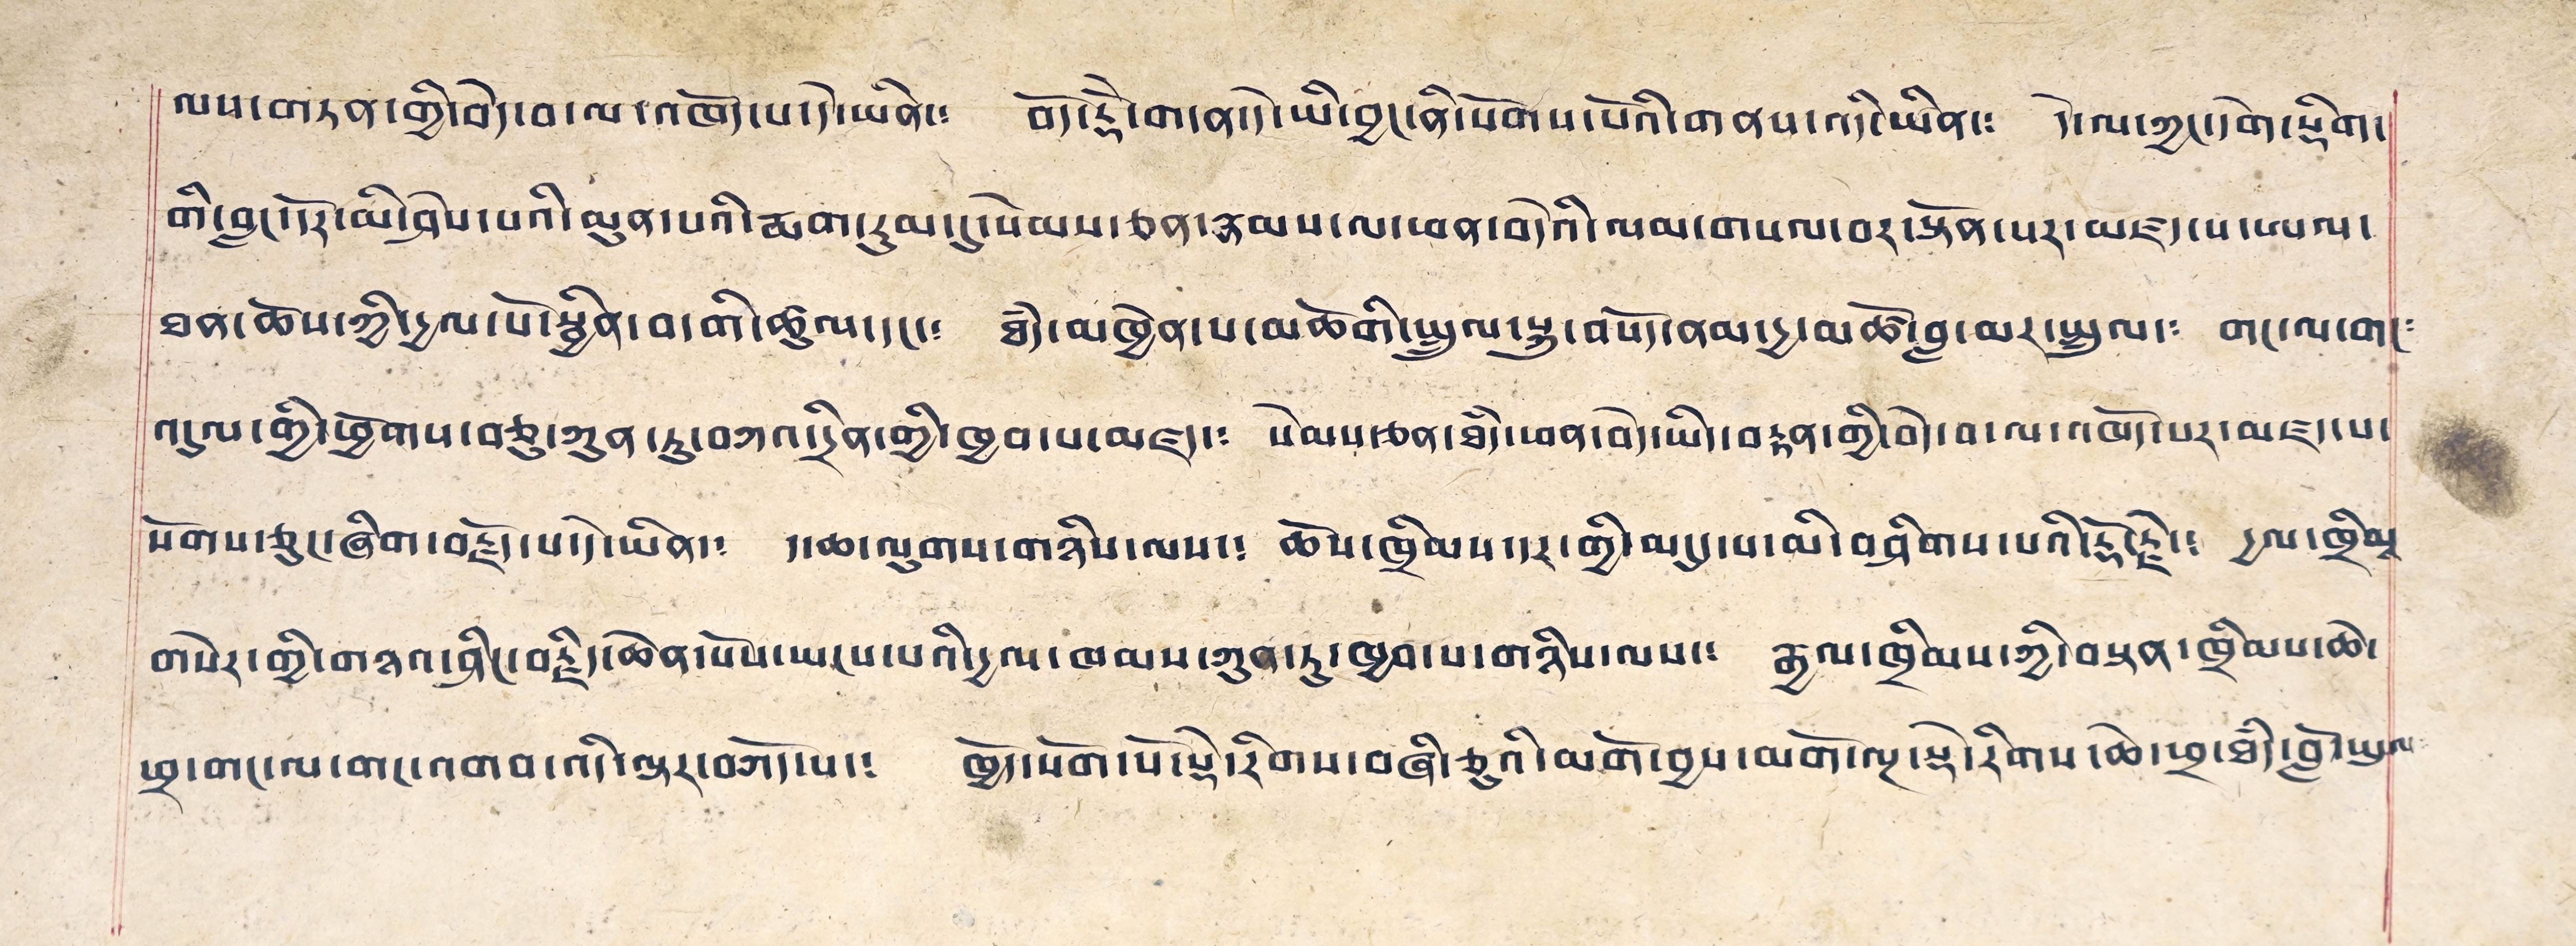ལས་གཏན་གྱི་བདེ་བ་ལ་འཁོད་པ་དེ་ཡིན་༴ བོད་རྡཻ་གདན་དེ་ཡི་བྱང་ནི་སོགས་པོའི་གནས་འདི་ཡིན་༴ དེ་ལ་ཀྱང་དགེ་སྡིག་
གི་བླང་དོར་མི་ཤེས་པའི་མུན་པའི་རྨག་རུམ་དུ་སེམས་ཅན་རྣམས་ལ་ཕན་བདེའི་ལམ་གསལ་བར་སྟོན་པར་མཛད་པ་ཨལ་
ཐན་ཆོས་ཀྱི་དྱལ་པོ་སྦྱིན་བདགི་ཚུལ་དང་༴ ཐཾད་མགྱེན་པ་མཚོགི་སྤྲུལ་སྐུ་བསོད་ནམ་དྱ་མཚོ་བླ་མར་སྤྲུལ་༴ གང་ལ་གང༴
འདུལ་གྱི་ཕྱོགས་བཅུ་ཀུན་ཏུ་བཀའ་དྲིན་གྱི་ཁྱབ་པ་མཛད་༴ སེམས་ཅན་ཐཾད་ཕན་བདེ་ཡིད་བརྟན་གྱི་བདེ་བ་ལ་འཁོད་པར་མཛད་པ་
སོགས་ཅུང་ཞིག་བརྗོད་པ་དེ་ཡིན་༴ ད་ཆ་ལུགས་གཉིས་ལས་༴ ཆོས་ཁྲིམས་དར་གྱི་མདུད་པ་མི་བཤིགས་པའི་རྡོ་རྗེ་། དྱལ་ཁྲིམས་
གསེར་གྱི་གཉའ་ཤིང་བརྗོད་ཆེན་པོས་ཡངས་པའི་དྱལ་ཁམས་ཀུན་ཏུ་ཁྱབ་པ་གཉིས་ལས་། རྒྱལ་ཁྲིམས་ཀྱི་བསྟན་ཁྲིམས་ཆེ་
ཕྲ་གང་ལ་གང་འགབ་འདི་ལྟར་བཀོད་པ་༴ ཁྱོད་སོག་པོ་སྡེ་རིགས་བཞི་ཅུའི་མགོ་བྱས་མགོ་ལྔ་སྡེ་རིགས་ཆེ་ཕྲ་ཐཾད་བློ་ཡུལ་
